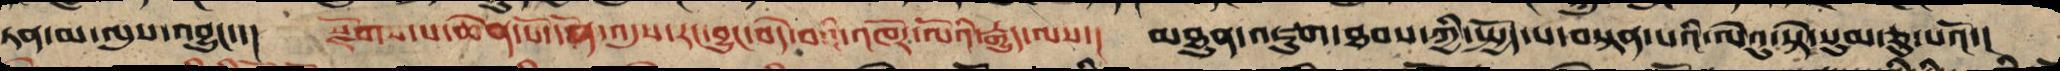ཏན་མ་ལུས་འབྱུང་་། སྫོགས་པ་ཆེན་པོ་དོན་འདུས་རང་བྱུང་བདེ་བའི་འཁོར་ལོའི་རྒྱུད་ལས་། མཐུན་འཇུག་ཐབས་ཀྱི་སྤྱོད་པ་བསྟན་པའི་ལེའུ་སྟེ་སུམ་ཅུ་པའོ་།།
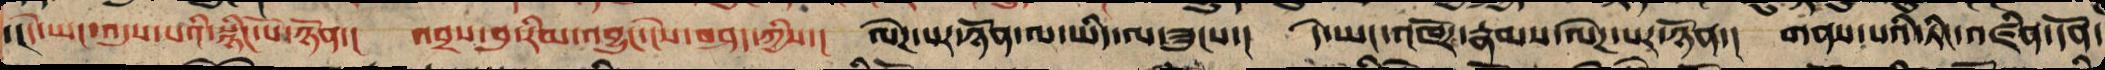།།དེ་ཡང་འདུས་པའི་སྙིང་པོ་ཉོན་། འབྲས་བུ་རིམ་འབྱུང་ངེས་བཤད་ཀྱིས་། ལེཌ་པར་ཉོན་ལ་ཡིད་ལ་ཟུང་་། དེ་ཡང་འཁོར་རྣམས་ལེཌ་པར་ཉོན་། གནས་པའི་ཏིང་འཛིན་དོན་
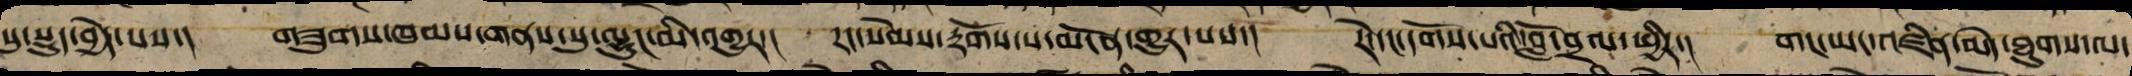སུ་སྡུད་བྱེད་པ་། གཟུགས་ཁམས་གནས་སུ་ལྷུང་མི་འགྱུར་། རང་སེམས་རྟོགས་པ་མངོན་གྱུར་པས་། རེ་དང་དགོས་པའི་བློ་བྲལ་ཕྱིར་། གང་ཡང་འཛིན་མེད་ཐུགས་ལ་
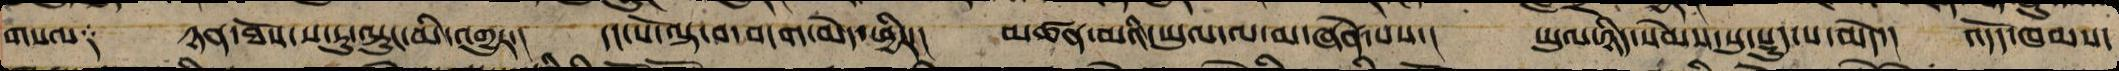གསལ༑ ཉན་ཐོས་ས་རུ་ལྟུང་མི་འགྱུར་། དང་པོ་བལྟ་བ་བདག་མེད་ཕྱིར་། མཚན་མའི་ཡུལ་ལ་མ་ཞེན་པས་། ཡུལ་ཉིད་སེམས་སུ་སྡུད་པ་མེད་། འདོད་ཁམས་
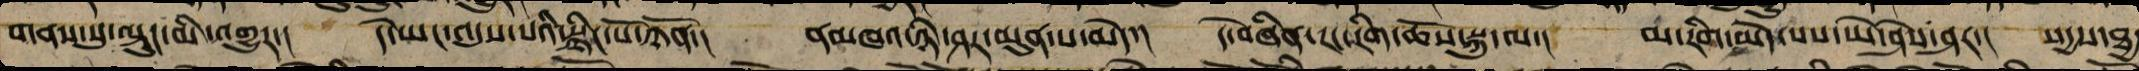གནས་སུ་ལྟུང་མི་འགྱུར་། དེ་ཡང་འདུས་པའི་སྙིང་པོ་ཉོན་། ནམ་མཁའ་ཉི་ཤར་མུན་པ་མེད་། དེ་བཞིན་རང་རིག་ཆོས་སྐུ་ལ་། མ་རིག་མེད་པས་ཡེ་ཤེས་ཤར་། སདྱས་ཐྱ་
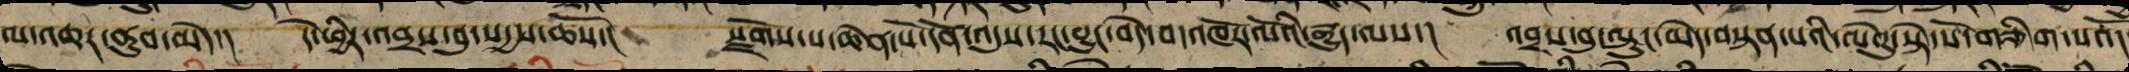ལ་འཆར་ནུབ་མེད་། དེ་ཕྱིར་འབྲས་བུ་སདྱས་ཆོས་། སྫོགས་པ་ཆེན་པོ་དོན་འདུས་རང་བྱུང་བདེ་བའི་འཁོར་ལོའི་རྒྱུད་ལས་། འབྲས་བུ་ལྟུང་མེད་བསྟན་པའི་ལེའུ་སྟེ་སོ་གཅིག་པའོ་
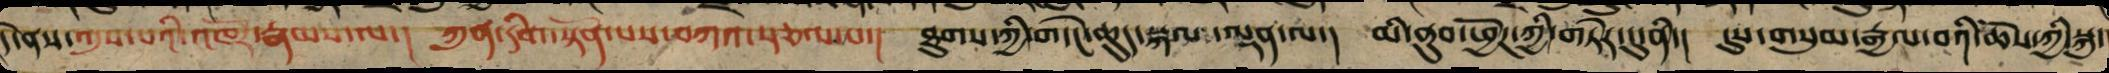དེ་ནས་འདུས་པའི་འཁོར་རྣམས་ལ་། ཀུན་རིག་སྟོན་པས་བཀའ་སྩལ་པ་། ཐུགས་ཀྱི་གདེང་ཆུད་སྐལ་ལྡན་ལ་། མི་ནུབ་ཕྱོཌ་ཀྱི་གཏེར་དུ་ནི་། དུས་གསུམ་རྒྱལ་བའི་ཆོས་ཀྱི་སྐུ་།
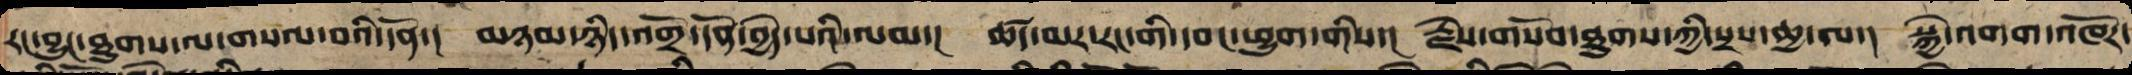རང་བྱུང་ཐུགས་ལ་གསལ་བའི་དོན་། མཉམ་ཉིད་འགྲོ་དོན་བྱེད་པའི་ལམ་། ཚད་མ་རང་གི་དབང་ཕྱུག་གིས་། རྗེས་གསོབ་ཐུགས་ཀྱི་སྲས་མཆོག་ལ་། སྐྱེ་འགགས་འཁོར་
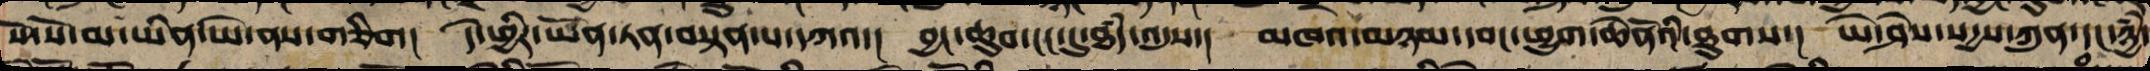སོ་སོ་མ་ཡིན་ཡེ་ནས་གཅིག། དེ་ཕྱིར་ཡོན་ཏན་བསྟན་པ་བཀའ་། བྱང་ཆུབ་ངང་དུ་ཐཾད་འདུས་། མཁའ་མཉམ་དབང་ཕྱུག་ཆེན་པོའི་ཐུགས་། ཡེ་ཤེས་སདྱས་ཀུན་དང་ཉྱཾ་
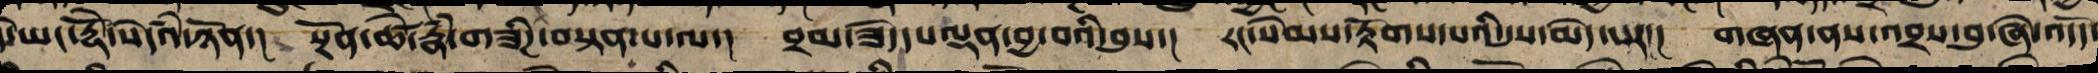དེ་ཡང་རྡོེ་སེདཾའ་ཉོན་། སྔོན་ཚེ་རྣཾ་གཟིཌ་བསྟན་པ་ལ་། བྲམ་ཟེ་དཔལྡན་བྱ་བའི་བུས་། རང་སེམས་རྟོགས་པའི་དོན་མེད་པར་། གཞན་ནས་འབྲས་བུ་ཞེ་འདོད་
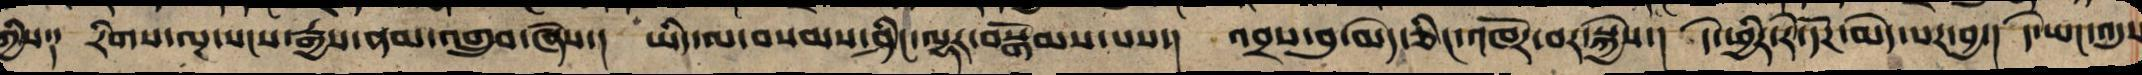ཀྱིས༑ རིགས་ལྔའི་སངས་རྒྱས་ནམ་འགྲུབ་ཞེས་། ཡིད་ལ་བསམས་ཤིང་ལྷར་བསྒོམས་པས་། འབྲས་བུ་མེད་ཅིང་འཁོར་བར་སྐྱེས་། དེ་ཕྱིར་རེ་དོཌ་མེད་པར་བྱ་། དེ་ཡང་འདུས
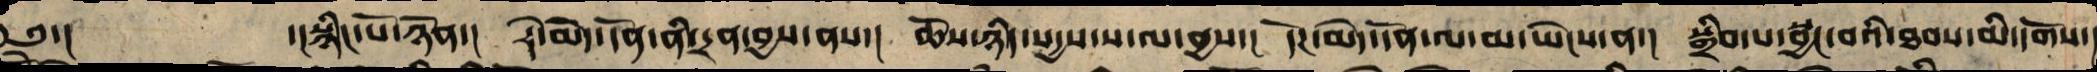༄༅་། ་།སྙིང་པོ་ཉོན་། རེ་མེད་དོན་ནི་དྲན་བྱས་ན་། ཆོས་ཉིད་སདྱས་ས་ལ་གནས་། དོཌ་མེད་དོན་ལ་མ་ཡེངས་ན་། སྒྲིབ་པ་སྦྱངས་པའི་ཐབས་མི་དགོས་།
